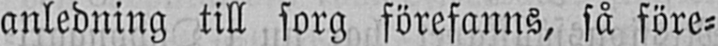anledning till sorg förefanns, så före-
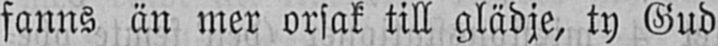fanns än mer orsak till glädje, ty Gud
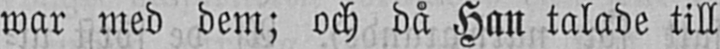war med dem; och då Han talade till
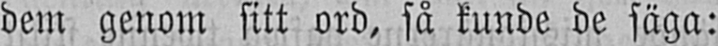dem genom sitt ord, så kunde de säga:
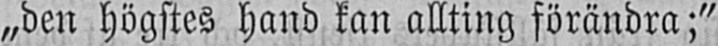„den högstes hand kan allting förändra;"
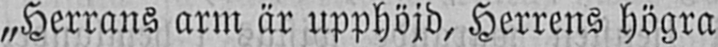„Herrans arm är upphöjd, Herrens högra
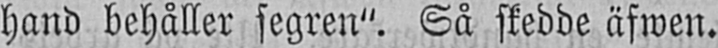hand behåller segren". Så skedde äfwen.
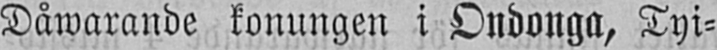Dåwarande konungen i Ondonga, Tyi-
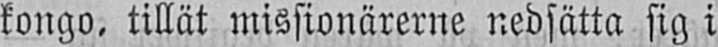kongo, tillät missionärerne nedsätta sig i
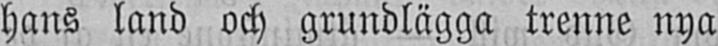hans land och grundlägga trenne nya
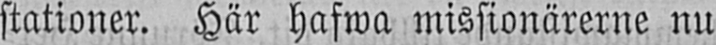stationer. Här hafwa missionärerne nu
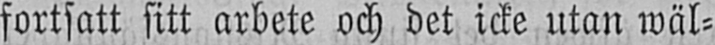fortsatt sitt arbete och det icke utan wäl-
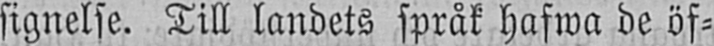signelse. Till landets språk hafwa de öf-
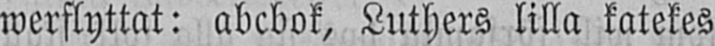werflyttat: abcbok, Luthers lilla katekes
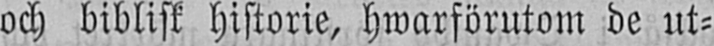och biblisk historie, hwarförutom de ut-
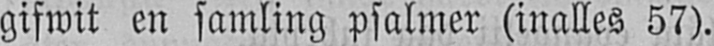gifwit en samling psalmer (inalles 57).
